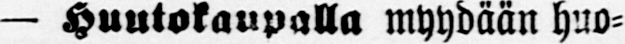— Huutokaupalla myydään huo-
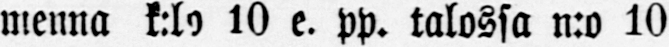menna k:lo 10 e. pp. talossa n:o 10
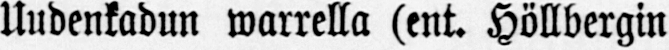Uudenkadun warrella (ent. Höllbergin
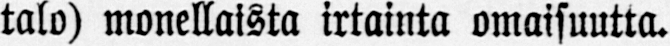talo) monellalsta irtainta omaisuutta.
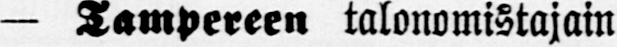— Tampereen talonomistajain
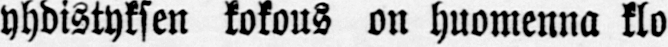yhdistyksen kokous on huomenna klo
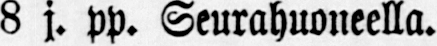8 j. pp. Seurahuoneella.
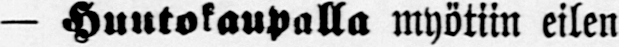— Huutokaupalla myötiin eilen
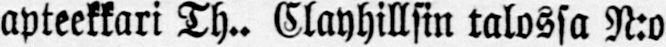apteekkari Th.. Clayhillsin talossa Nro
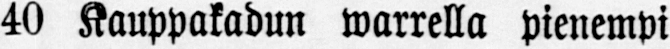40 Kauppakadun warrella pienempi
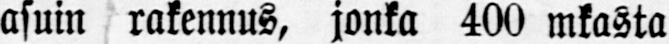asuin rakennus, jonka 400 mkasta
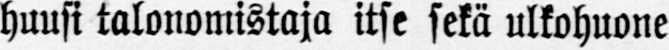huusi talonomistaja itse sekä ulkohuone
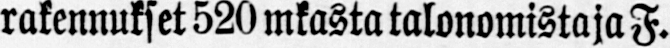rakennukset 520 mkasta talonomistaja F.
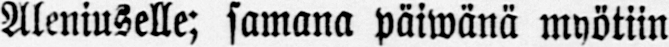Aleniuselle; samana päiwänä myötiin
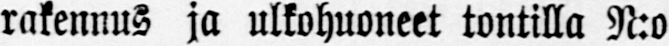rakennus ja ulkohuoneet tontilla N:o
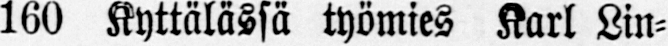160 Kyttälässä työmies Karl Lin-
